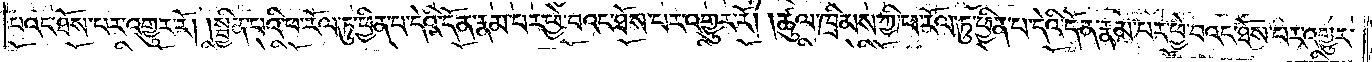པའང་ཐོས་པར་འགྱུར་རོ། །སྦྱིན་པའི་ཕ་རོལ་ཏུ་ཕྱིན་པ་དེའི་དོན་རྣམ་པར་ཕྱེ་བའང་ཐོས་པར་འགྱུར་རོ། །ཚུལ་ཁྲིམས་ཀྱི་ཕ་རོལ་ཏུ་ཕྱིན་པ་དེའི་དོན་རྣམ་པར་ཕྱེ་བའང་ཐོས་པར་འགྱུར་
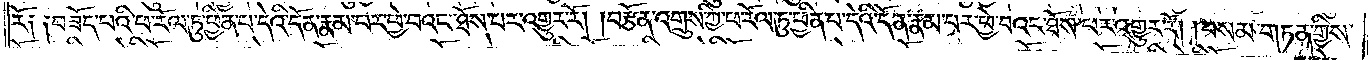རོ། །བཟོད་པའི་ཕ་རོལ་ཏུ་ཕྱིན་པ་དེའི་དོན་རྣམ་པར་ཕྱེ་བའང་ཐོས་པར་འགྱུར་རོ། །བརྩོན་འགྲུས་ཀྱི་ཕ་རོལ་ཏུ་ཕྱིན་པ་དེའི་དོན་རྣམ་པར་ཕྱེ་བའང་ཐོས་པར་འགྱུར་རོ། །བསམ་གཏན་གྱིས་
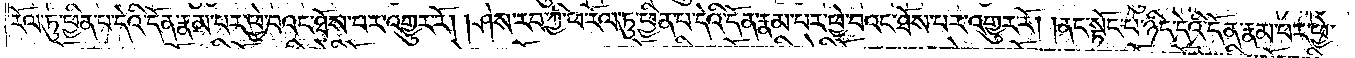རོལ་ཏུ་ཕྱིན་པ་དེའི་དོན་རྣམ་པར་ཕྱེ་བའང་ཐོས་པར་འགྱུར་རོ། །ཤེས་རབ་ཀྱི་ཕ་རོལ་ཏུ་ཕྱིན་པ་དེའི་དོན་རྣམ་པར་ཕྱེ་བའང་ཐོས་པར་འགྱུར་རོ། །ནང་སྟོང་པ་ཉིད་དེའི་དོན་རྣམ་པར་ཕྱེ་
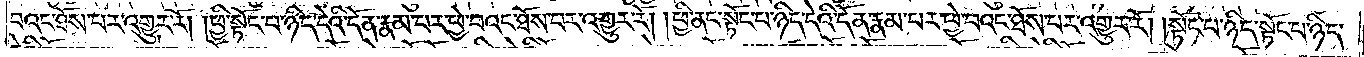བའང་ཐོས་པར་འགྱུར་རོ། །ཕྱི་སྟོང་པ་ཉིད་དེའི་དོན་རྣམ་པར་ཕྱེ་བའང་ཐོས་པར་འགྱུར་རོ། །ཕྱི་ནང་སྟོང་པ་ཉིད་དེའི་དོན་རྣམ་པར་ཕྱེ་བའང་ཐོས་པར་འགྱུར་རོ། །སྟོང་པ་ཉིད་སྟོང་པ་ཉིད་
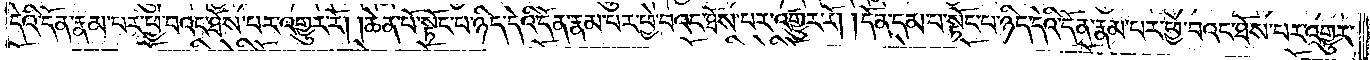དེའི་དོན་རྣམ་པར་ཕྱེ་བའང་ཐོས་པར་འགྱུར་རོ། །ཆེན་པོ་སྟོང་པ་ཉིད་དེའི་དོན་རྣམ་པར་ཕྱེ་བའང་ཐོས་པར་འགྱུར་རོ། །དོན་དམ་པ་སྟོང་པ་ཉིད་དེའི་དོན་རྣམ་པར་ཕྱེ་བའང་ཐོས་པར་འགྱུར་
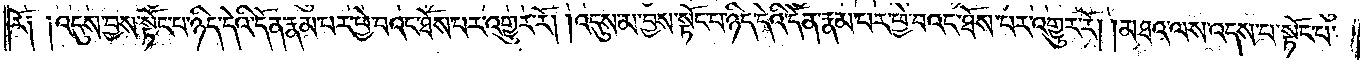རོ༑ ༑འདུས་བྱས་སྟོང་པ་ཉིད་དེའི་དོན་རྣམ་པར་ཕྱེ་བའང་ཐོས་པར་འགྱུར་རོ། །འདུས་མ་བྱས་སྟོང་པ་ཉིད་དེའི་དོན་རྣམ་པར་ཕྱེ་བའང་ཐོས་པར་འགྱུར་རོ། །མཐའ་ལས་འདས་པ་སྟོང་པ་
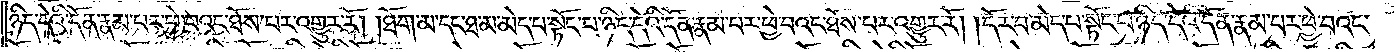ཉིད་དེའི་དོན་རྣམ་པར་ཕྱེ་བའང་ཐོས་པར་འགྱུར་རོ། །ཐོག་མ་དང་ཐ་མ་མེད་པ་སྟོང་པ་ཉིད་དེའི་དོན་རྣམ་པར་ཕྱེ་བའང་ཐོས་པར་འགྱུར་རོ། །དོར་བ་མེད་པ་སྟོང་པ་ཉིད་དེའི་དོན་རྣམ་པར་ཕྱེ་བའང་
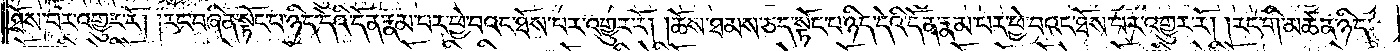ཐོས་པར་འགྱུར་རོ། །རང་བཞིན་སྟོང་པ་ཉིད་དེའི་དོན་རྣམ་པར་ཕྱེ་བའང་ཐོས་པར་འགྱུར་རོ། །ཆོས་ཐམས་ཅད་སྟོང་པ་ཉིད་དེའི་དོན་རྣམ་པར་ཕྱེ་བའང་ཐོས་པར་འགྱུར་རོ། །རང་གི་མཚན་ཉིད་
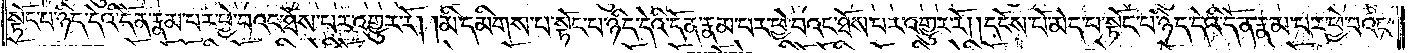སྟོང་པ་ཉིད་དེའི་དོན་རྣམ་པར་ཕྱེ་བའང་ཐོས་པར་འགྱུར་རོ། །མི་དམིགས་པ་སྟོང་པ་ཉིད་དེའི་དོན་རྣམ་པར་ཕྱེ་བའང་ཐོས་པར་འགྱུར་རོ། །དངོས་པོ་མེད་པ་སྟོང་པ་ཉིད་དེའི་དོན་རྣམ་པར་ཕྱེ་བའང་
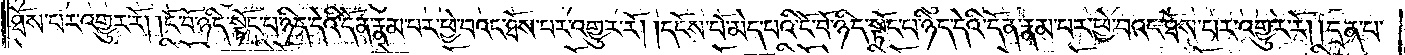ཐོས་པར་འགྱུར་རོ། །ངོ་བོ་ཉིད་སྟོང་པ་ཉིད་དེའི་དོན་རྣམ་པར་ཕྱེ་བའང་ཐོས་པར་འགྱུར་རོ། །དངོས་པོ་མེད་པའི་ངོ་བོ་ཉིད་སྟོང་པ་ཉིད་དེའི་དོན་རྣམ་པར་ཕྱེ་བའང་ཐོས་པར་འགྱུར་རོ། །དྲན་པ་
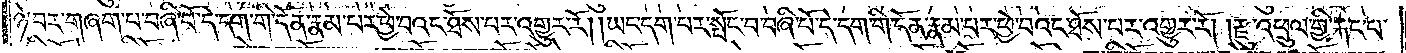ཉེ་བར་གཞག་པ་བཞི་པོ་དེ་དག་གི་དོན་རྣམ་པར་ཕྱེ་བའང་ཐོས་པར་འགྱུར་རོ། །ཡང་དག་པར་སྤོང་བ་བཞི་པོ་དེ་དག་གི་དོན་རྣམ་པར་ཕྱེ་བའང་ཐོས་པར་འགྱུར་རོ། །རྫུ་འཕྲུལ་གྱི་རྐང་པ་
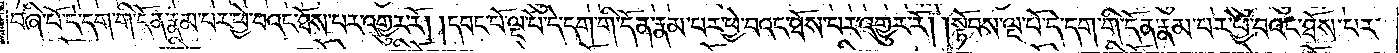བཞི་པོ་དེ་དག་གི་དོན་རྣམ་པར་ཕྱེ་བའང་ཐོས་པར་འགྱུར་རོ། །དབང་པོ་ལྔ་པོ་དེ་དག་གི་དོན་རྣམ་པར་ཕྱེ་བའང་ཐོས་པར་འགྱུར་རོ། །སྟོབས་ལྔ་པོ་དེ་དག་གི་དོན་རྣམ་པར་ཕྱེ་བའང་ཐོས་པར་
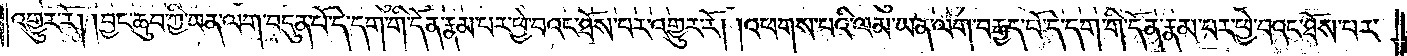འགྱུར་རོ། །བྱང་ཆུབ་ཀྱི་ཡན་ལག་བདུན་པོ་དེ་དག་གི་དོན་རྣམ་པར་ཕྱེ་བའང་ཐོས་པར་འགྱུར་རོ། །འཕགས་པའི་ལམ་ཡན་ལག་བརྒྱད་པོ་དེ་དག་གི་དོན་རྣམ་པར་ཕྱེ་བའང་ཐོས་པར་
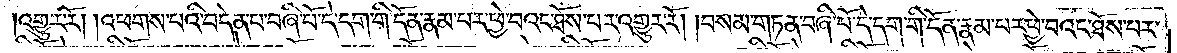འགྱུར་རོ། །འཕགས་པའི་བདེན་པ་བཞི་པོ་དེ་དག་གི་དོན་རྣམ་པར་ཕྱེ་བའང་ཐོས་པར་འགྱུར་རོ། །བསམ་གཏན་བཞི་པོ་དེ་དག་གི་དོན་རྣམ་པར་ཕྱེ་བའང་ཐོས་པར་
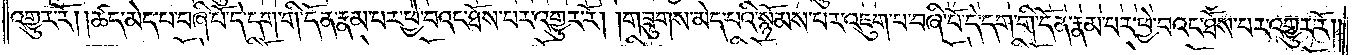འགྱུར་རོ། །ཚད་མེད་པ་བཞི་པོ་དེ་དག་གི་དོན་རྣམ་པར་ཕྱེ་བའང་ཐོས་པར་འགྱུར་རོ། །གཟུགས་མེད་པའི་སྙོམས་པར་འཇུག་པ་བཞི་པོ་དེ་དག་གི་དོན་རྣམ་པར་ཕྱེ་བའང་ཐོས་པར་འགྱུར་རོ། །
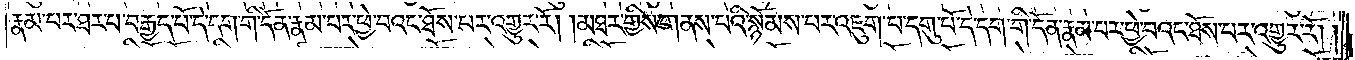རྣམ་པར་ཐར་པ་བརྒྱད་པོ་དེ་དག་གི་དོན་རྣམ་པར་ཕྱེ་བའང་ཐོས་པར་འགྱུར་རོ། །མཐར་གྱིས་གནས་པའི་སྙོམས་པར་འཇུག་པ་དགུ་པོ་དེ་དག་གི་དོན་རྣམ་པར་ཕྱེ་བའང་ཐོས་པར་འགྱུར་རོ། །
